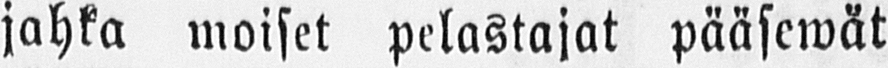jahka moiset pelastajat pääsewät
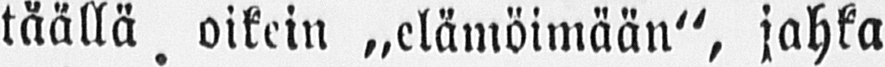täällä, oikein „elämöimään", jahka
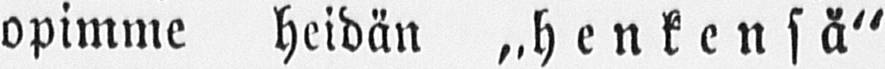opimme heidän „henkensä"
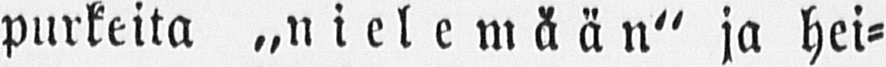purkeita „nielemään" ja hei-
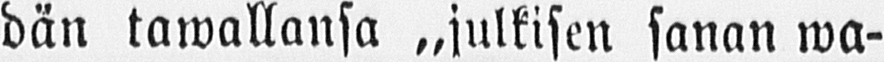dän tawallansa „julkisen sanan wa-
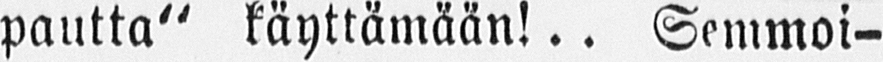pautta" käyttämään!.. Semmoi-
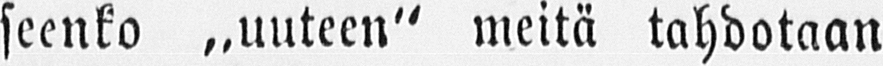seenko „uuteen" meitä tahdotaan
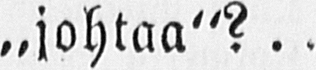„johtaa"?..
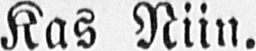Kas Niin.
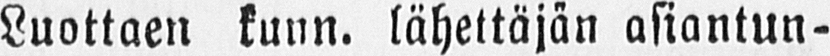Luottaen kuun. lähettäjän asiantun-
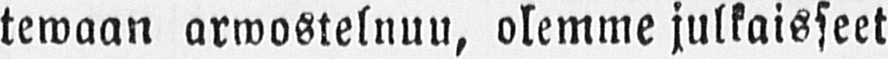temaan armostelnuu, olemme julkaisseet
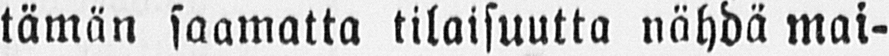tämän saamatta tilaisuutta nähdä mai-
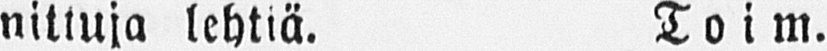nittuja lehtiä. To im.
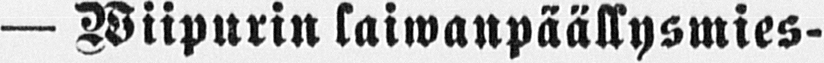— Wiipurin laiwanpäällysmies-
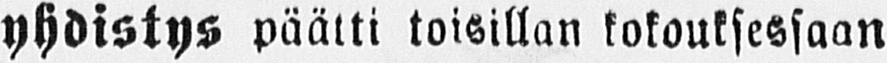yhdistys päätti toisillan kokouksessaan
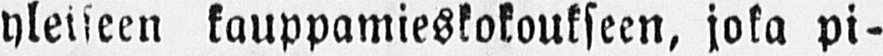yleiseen kauppamieskokoukseen, joka pi-
